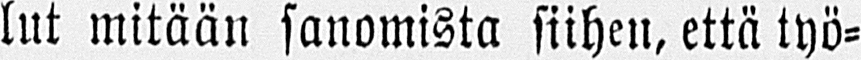lut mitään sanomista siihen, että työ-
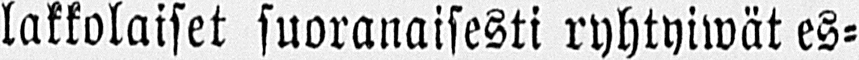lakkolaiset suoranaisesti ryhtyiwät es-
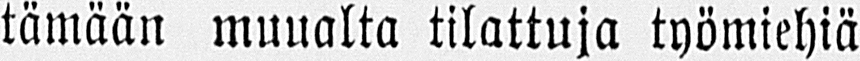tämään muualta tilattuja työmiehiä
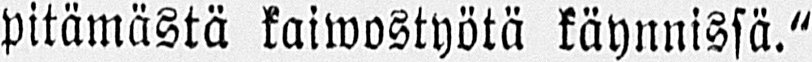pitämästä kaiwostyötä käynnissä."
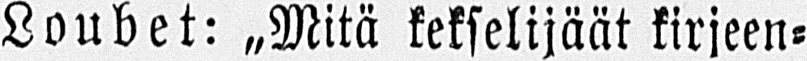Loubet: „Mitä kekselijäät kirjeen-
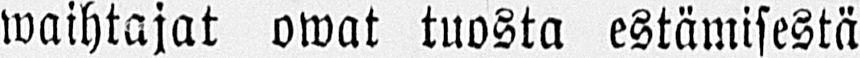waihtajat owat tuosta estämisestä
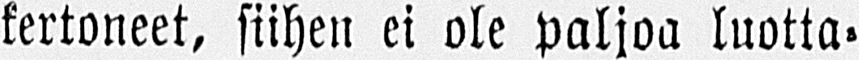kertoneet, siihen ei ole paljoa luotta-
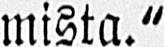mista."
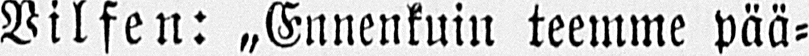Wilfen: „Ennenkuin teemme pää-
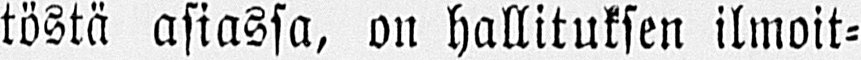töstä asiassa, on hallituksen ilmoit-
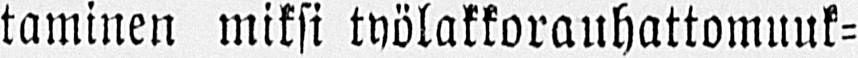taminen miksi työlakkorauhattomuuk-
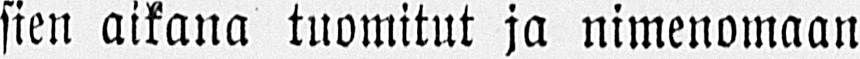sien aikana tuomitut ja nimenomaan
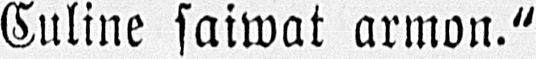Culine saiwat armon."
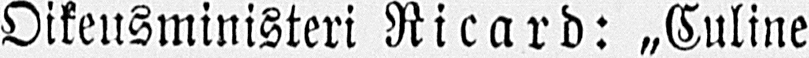Oikeusministeri Ricard: „Culine
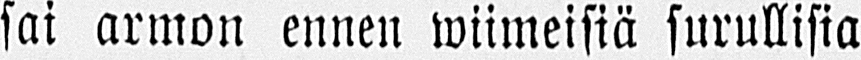sai armon ennen wiimeistä surullisia
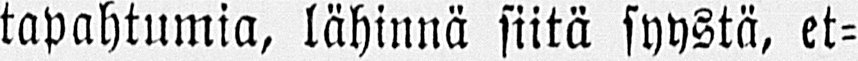tapahtumia, lähinnä siitä syystä, et-
